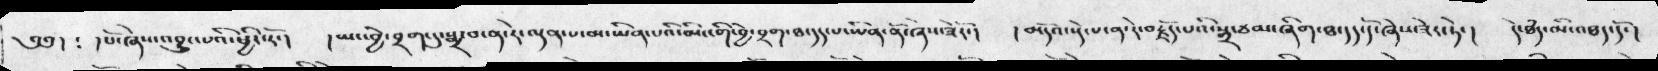༄༅།  ༴ །པོ་ཞེས་འབྱུང་པའི་ཕྱིར་རོ་།  །ཡང་བྱེ་བྲག་དུ་སྨྲ་བ་ན་རེ་ལྡན་པ་མ་ཡིན་པའི་མིང་གི་བྱེ་བྲག་ཐ་དད་པ་ཡིན་ནོ་ཞེས་ཟེརོ་།  ། མདོའ་སྡེ་པ་ན་དེ་བརྗོད་པའི་སྒྲ་ཙམ་ཞིག་ཐ་དད་དོ་ཞེས་ཟེར་ཏེ་།  དེ་ཐཾད་མི་འཐད་དོ་།
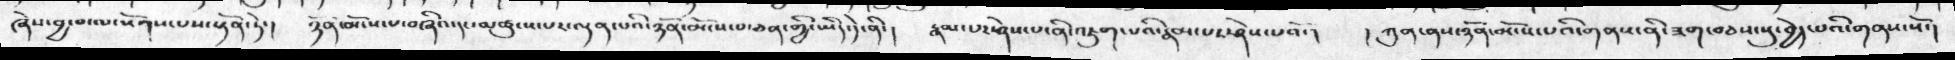ཞེས་བྱ་བ་ལ་སོགས་པས་སྟོན་ཏེ་།  ཉོན་མོངས་པ་བཞིའ་དང་མཚུངས་པར་ལྡན་པའི་ཉོན་མོངས་པ་ཅན་གྱི་ཡིད་དེ་ནི་།  རྣམ་པར་ཤེས་པ་ནི་འཇུག་པའི་རྣམ་པར་ཤེས་པའོ་།  །ཀུན་ནས་ཉོན་མོངས་པའི་གནས་ནི་ཟག་བཅས་སུ་བྱེད་པའི་གནས་སོ་།
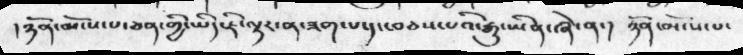།ཉོན་མོངས་པ་ཅན་གྱི་ཡིད་ཇི་ལྟར་ན་ཟག་པ་དང་བཅས་པའི་རྒྱུ་ཡིན་ཞེ་ན་།  ཉོན་མོངས་པ་
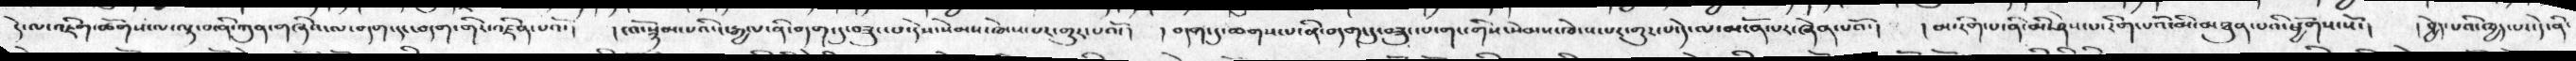དེ་ལ་འཇིག་ཚོགས་ལ་ལྟ་བ་ནི་ཀུན་གཞིའ་ལ་བདག་དང་བདག་གིར་འཛིན་པའོ་།  །ངའོ་སྙོམ་པའི་ང་རྒྱལ་ནི་བདག་དུ་བཟུང་པ་དེས་སེམས་ཁེངས་པར་གྱུར་པའོ་།  །བདག་དུ་ཆགས་པ་ནི་བདག་དུ་བཟུང་པ་གང་གིས་སེམས་ཁེངས་པར་གྱུར་པ་དེ་ལ་མངོན་པར་ཞེན་པའོ་།  །མ་རིག་པ་ནི་མི་ཤེས་པ་རིག་པའི་མི་མཐུན་པའི་ཕྱོགས་སོ་།  །བྱེད་པའི་ཁྱད་པ་དེ་ནི་
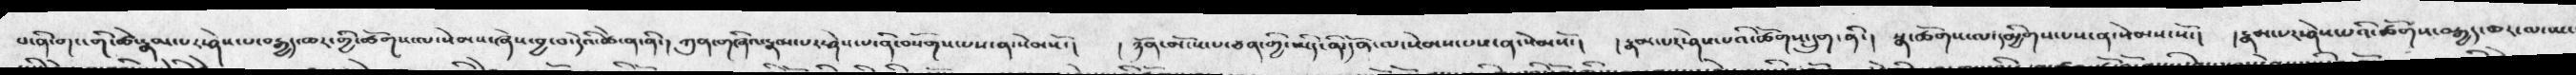པ་ནི་གང་གི་ཚེ་རྣམ་པར་ཤེས་པ་བརྒྱད་ཆར་གྱི་ཚོགས་ལ་སེམས་ཞེས་བྱ་བ་དེའི་ཚེ་ན་ནི་།  ཀུན་གཞིའ་རྣམ་པར་ཤེས་པ་ནི་བསོགས་པས་ན་སེམསོ་།  །ཉོན་མོངས་པ་ཅན་གྱི་ཡིད་ནི་དོན་ལ་སེམས་པས་ན་སེམསོ་།  །རྣམ་པར་ཤེས་པའི་ཚོགས་དྲུག་ནི་།  སྣ་ཚོགས་ལ་དམྱིགས་པས་ན་སེམས་སོ་།  །རྣམ་པར་ཤེས་པའི་ཚོགས་བརྒྱད་ཆར་མ་སྤངང
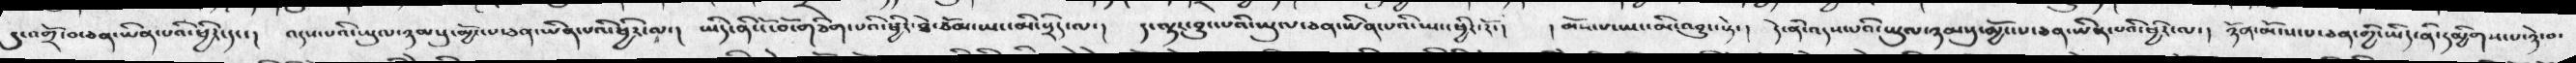དུ་འགྲོ་བ་ཅན་ཡིན་པའི་ཕྱིར་དང་།  འདས་པའི་ཡུལ་ཉམསུ་མྱོང་པ་ཅན་ཡིན་པའི་ཕྱིར་ལ་། ཡིད་ནི་ངོ་བོ་གཅིག་པའི་ཕྱིར་ཐེ་ཙོམ་ཡང་མི་སྲིད་ལ་། ད་ལྟར་བྱུང་པའི་ཡུལ་ཅན་ཡིན་པའི་ཡང་ཕྱིར་རོ་།  །མོས་པ་ཡང་མི་འབྱུང་སྟེ་།  དེ་ནི་འདས་པའི་ཡུལ་ཉམསུ་མྱོང་པ་ཅན་ཡིན་པའི་ཕྱིར་ལ་།  ཉོན་མོངས་པ་ཅན་གྱི་ཡིད་ནི་དམྱིགས་པ་ཉེ་བ་
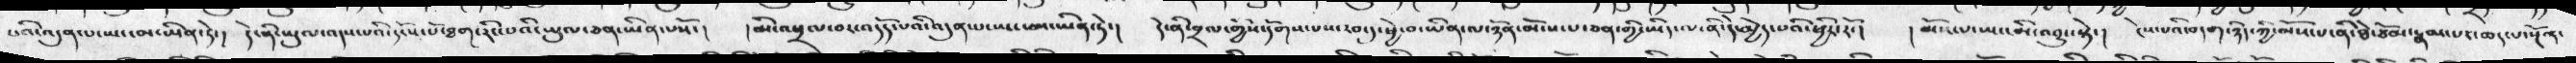པའི་འདུན་པ་ཡང་མ་ཡིན་ཏེ་།  དེ་ནི་ཡུལ་འདས་པའི་དངོས་པོ་ཐག་རིང་པའི་ཡུལ་ཅན་ཡིན་པསོ་།  །མི་འཕྲལ་བར་འདོད་པའི་འདུན་པ་ཡང་མ་ཡིན་ཏེ་།  དེ་ནི་བྲལ་གྱིས་དོགས་པས་རབ་དུ་ཕྱེ་བ་ཡིན་ལ་ཉོན་མོངས་པ་ཅན་གྱི་ཡིད་ལ་ནི་དེ་མྱེད་པའི་ཕྱིར་རོ་།  །མོས་པ་ཡང་མི་འབྱུང་སྟེ་། ངེས་པའི་བདག་ཉིད་ཀྱི་མོས་པ་ནི་ཐེ་ཙོམ་རྣམ་པར་ཆད་པ་སྔོན་
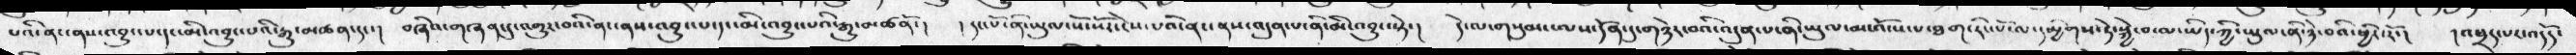པའི་ནང་ནས་འབྱུང་པ་དང་མི་འབྱུང་པའི་རྒྱུ་མཚན་དང་།  བཞིའ་གཞན་དུ་འགྱུར་བའི་ནང་ནས་འབྱུང་པའི་རྒྱུ་མཚནོ་། །དང་པོ་ནི་ཡུལ་སོ་སོ་ངེས་པའི་ནང་ནས་འདུན་པ་ནི་མི་འབྱུང་སྟེ་། དེ་ལ་གསུམ་ལས་དོན་དུ་གཉེར་བའི་འདུན་པ་ནི་ཡུལ་མ་འོངས་པ་ཐག་རིང་པོ་ལ་དམྱིགས་ཏེ་སྐྱེ་བ་ལ་ཡིད་ཀྱི་ཡུལ་ནི་ཉེ་བའི་ཕྱིར་རོ་།  །འཕྲད་པར་འདོད་
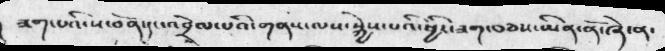ཟག་པའི་ས་བོན་དང་འབྲེལ་པའི་གནས་ལས་སྐྱེས་པའི་ཕྱིར་ཟག་བཅས་ཡིན་ནོ་ཞེ་ན་
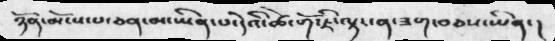ཉོན་མོངས་པ་ཅན་མ་ཡིན་པ་དེའི་ཚེ་གོ་ཇི་ལྟར་ན་ཟག་བཅས་ཡིན་།
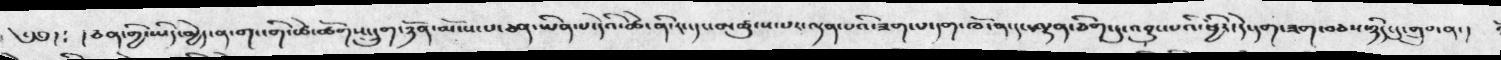༄༅།  ༴ །ཅན་གྱི་ཡིད་མྱེད་ན་གང་གི་ཚེ་ཚོགས་དྲུག་ཉོན་མོངས་པ་ཅན་ཡིན་པ་དེའི་ཚེ་ནི་རང་དང་མཚུངས་པར་ལྡན་པའི་ཟག་པ་དག་ཁོ་ན་དང་ལྷན་ཅིག་དུ་འབྱུང་པའི་ཕྱིར་དེ་དག་ཟག་བཅས་ཉིད་དུ་གྲུབ་ན་།
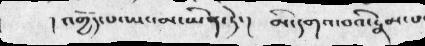། འགྱོད་པ་ཡང་མ་ཡིན་ཏེ་།   མི་དགའ་བའི་རྣམ་པ་
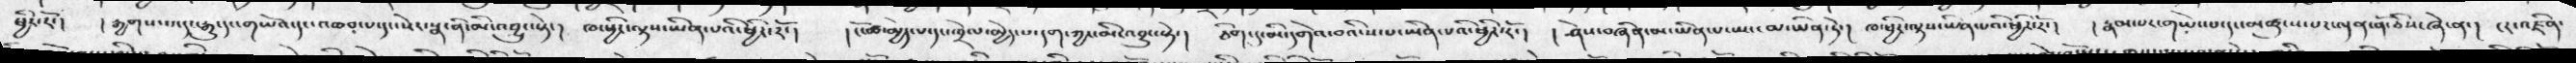ཕྱིར་རོ་།   ། རྒྱགས་པ་དང་རྒྱུ་དང་གཡོའ་དང་འཆབ་པ་དང་སེར་སྣ་ནི་མི་འབྱུང་སྟེ་།   ཁ་ཕྱིར་ལྟས་ཡིན་པའི་ཕྱིར་རོ་།  ། ངོ་ཚ་མྱེད་པ་དང་ཁྲེལ་མྱེད་པ་དག་ཀྱང་མི་འབྱུང་སྟེ་།   ཅིག་དུ་མི་དགེའ་བའི་ས་པ་ཡིན་པའི་ཕྱིར་རོ་།   ། ཤེས་བཞིན་མ་ཡིན་པ་ཡང་མ་ཡིན་ཏེ་། ཁ་ཕྱིར་ལྟས་ཡིན་པའི་ཕྱིར་རོ་། རྣམ་པར་གཡེང་པ་དང་མཚུངས་པར་ལྡན་ནོ་ཅིས་ཞེ་ན་།  ངར་འཛིན་
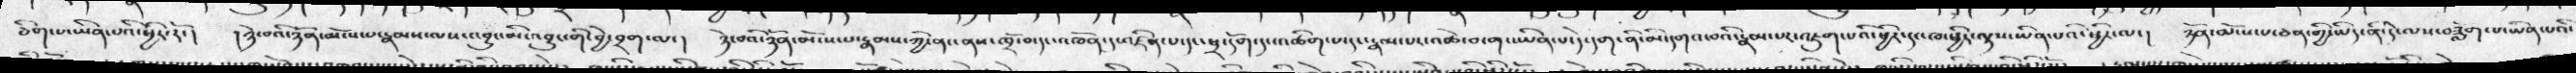ཅིག་པ་ཡིན་པའི་ཕྱིར་རོ་།   །ཉེ་བའི་ཉོན་མོངས་པ་རྣམས་ལས་འབྱུང་མི་འབྱུང་གི་བྱེ་བྲག་ལ་།  ཉེ་བའི་ཉོན་མོངས་པ་རྣམས་ཀྱི་ནང་ནས་ཁྲོ་མདང་འཁོན་དུ་འཛིན་པ་དང་ཕྲ་དོག་དུང་འཆིག་པ་དང་རྣམ་པར་འཚེ་བ་གང་ཡིན་པ་དེ་དག་ནི་མི་དགའ་བའི་རྣམ་པར་འཇུག་པའི་ཕྱིར་དང་ཁ་ཕྱིར་ལྟས་ཡིན་པའི་ཕྱིར་ལ་།   ཉོན་མོངས་པ་ཅན་གྱི་ཡིད་ནི་དེ་ལས་བཟློག་པ་ཡིན་པའི་
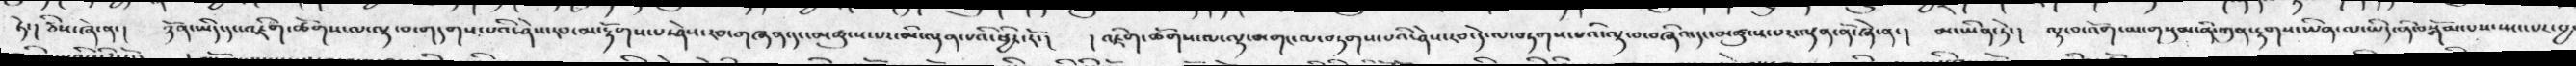ཏེ་།  ཅིས་ཞེ་ན་།  ཉོན་ཡིད་དང་འཇིག་ཚོགས་ལ་ལྟ་བ་གདགས་པའི་ཤེས་རབ་མ་རྟོགས་པ་ཤེས་རབ་གཞན་དང་མཚུངས་པར་མི་ལྡན་པའི་ཕྱིར་རོ་།   ། འཇིག་ཚོགས་ལ་ལྟ་བ་གང་ལ་བཏགས་པའི་ཤེས་རབ་དེ་ལ་བཏགས་པའི་ལྟ་བ་བཞིའ་དང་མཚུངས་པར་ལྟན་ནོ་ཞེ་ན།  མ་ཡིན་ཏེ་།  ལྟ་བ་འོག་མ་གསུམ་ནི་ཀུན་རྟགས་ཡིན་ལ་ཡིད་ནི་བསྒོམ་པས་སྤང་པར་བྱ་
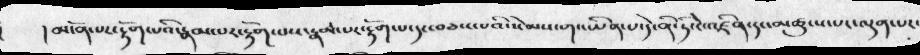། མངོན་པར་རྟོག་པའི་རྣམ་པར་རྟོག་པས་རྣམ་པར་རྟོག་པ་དང་བཅས་པའི་སེམས་གང་ཡིན་པ་དེ་ནི་ཏི་ངེ་འཛིན་དང་མཚུངས་པ་ལྡན་པར་
